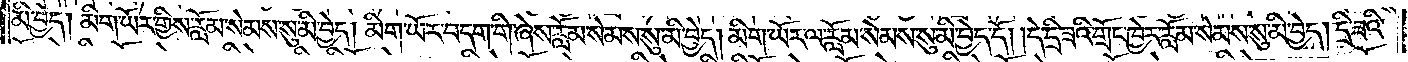སུ་མི་བྱེད། མིག་ཡོར་གྱིས་རློམ་སེམས་སུ་མི་བྱེད། མིག་ཡོར་བདག་གི་ཞེས་རློམ་སེམས་སུ་མི་བྱེད། མིག་ཡོར་ལ་རློམ་སེམས་སུ་མི་བྱེད་དོ། །དེ་དྲི་ཟའི་གྲོང་ཁྱེར་རློམ་སེམས་སུ་མི་བྱེད། དྲི་ཟའི་
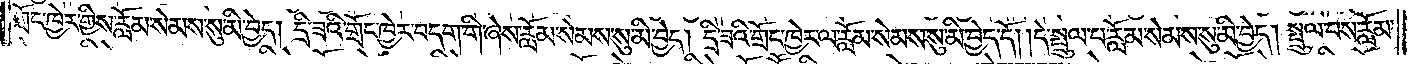གྲོང་ཁྱེར་གྱིས་རློམ་སེམས་སུ་མི་བྱེད། དྲི་ཟའི་གྲོང་ཁྱེར་བདག་གི་ཞེས་རློམ་སེམས་སུ་མི་བྱེད། དྲི་ཟའི་གྲོང་ཁྱེར་ལ་རློམ་སེམས་སུ་མི་བྱེད་དོ། །དེ་སྤྲུལ་པ་རློམ་སེམས་སུ་མི་བྱེད། སྤྲུལ་པས་རློམ་
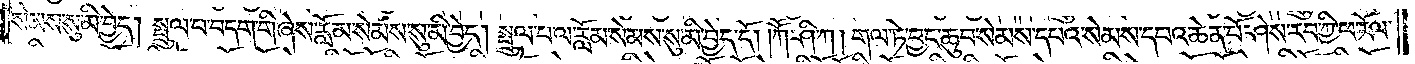སེམས་སུ་མི་བྱེད། སྤྲུལ་པ་བདག་གི་ཞེས་རློམ་སེམས་སུ་མི་བྱེད། སྤྲུལ་པ་ལ་རློམ་སེམས་སུ་མི་བྱེད་དོ། །ཀཽ་ཤི་ཀ། གལ་ཏེ་བྱང་ཆུབ་སེམས་དཔའ་སེམས་དཔའ་ཆེན་པོ་ཤེས་རབ་ཀྱི་ཕ་རོལ་
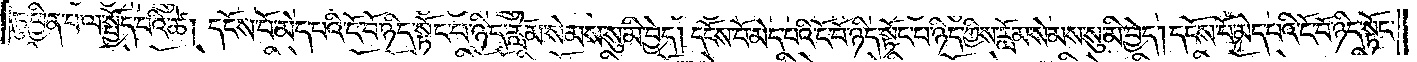ཏུ་ཕྱིན་པ་ལ་སྤྱོད་པའི་ཚེ། དངོས་པོ་མེད་པའི་ངོ་བོ་ཉིད་སྟོང་པ་ཉིད་རློམ་སེམས་སུ་མི་བྱེད། དངོས་པོ་མེད་པའི་ངོ་བོ་ཉིད་སྟོང་པ་ཉིད་ཀྱིས་རློམ་སེམས་སུ་མི་བྱེད། དངོས་པོ་མེད་པའི་ངོ་བོ་ཉིད་སྟོང་
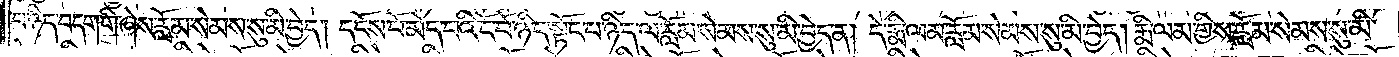པ་ཉིད་བདག་གི་ཞེས་རློམ་སེམས་སུ་མི་བྱེད། དངོས་པོ་མེད་པའི་ངོ་བོ་ཉིད་སྟོང་པ་ཉིད་ལ་རློམ་སེམས་སུ་མི་བྱེད་ན། དེ་རྨི་ལམ་རློམ་སེམས་སུ་མི་བྱེད། རྨི་ལམ་གྱིས་རློམ་སེམས་སུ་མི་
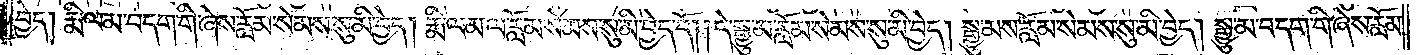བྱེད། རྨི་ལམ་བདག་གི་ཞེས་རློམ་སེམས་སུ་མི་བྱེད། རྨི་ལམ་ལ་རློམ་སེམས་སུ་མི་བྱེད་དོ། །དེ་སྒྱུ་མ་རློམ་སེམས་སུ་མི་བྱེད། སྒྱུ་མས་རློམ་སེམས་སུ་མི་བྱེད། སྒྱུ་མ་བདག་གི་ཞེས་རློམ་
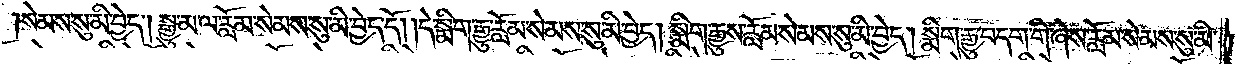སེམས་སུ་མི་བྱེད། སྒྱུ་མ་ལ་རློམ་སེམས་སུ་མི་བྱེད་དོ། །དེ་སྨིག་རྒྱུ་རློམ་སེམས་སུ་མི་བྱེད། སྨིག་རྒྱུས་རློམ་སེམས་སུ་མི་བྱེད། སྨིག་རྒྱུ་བདག་གི་ཞེས་རློམ་སེམས་སུ་མི་
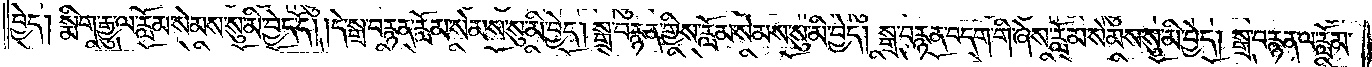བྱེད། སྨིག་རྒྱུ་ལ་རློམ་སེམས་སུ་མི་བྱེད་དོ། །དེ་སྒྲ་བརྙན་རློམ་སེམས་སུ་མི་བྱེད། སྒྲ་བརྙན་གྱིས་རློམ་སེམས་སུ་མི་བྱེད། སྒྲ་བརྙན་བདག་གི་ཞེས་རློམ་སེམས་སུ་མི་བྱེད། སྒྲ་བརྙན་ལ་རློམ་
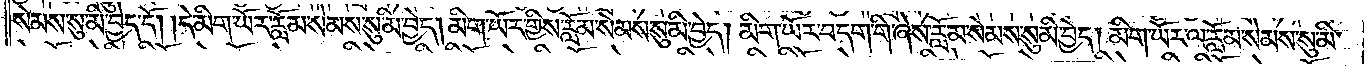སེམས་སུ་མི་བྱེད་དོ། །དེ་མིག་ཡོར་རློམ་སེམས་སུ་མི་བྱེད། མིག་ཡོར་གྱིས་རློམ་སེམས་སུ་མི་བྱེད། མིག་ཡོར་བདག་གི་ཞེས་རློམ་སེམས་སུ་མི་བྱེད། མིག་ཡོར་ལ་རློམ་སེམས་སུ་མི་
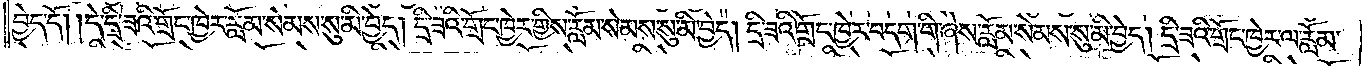བྱེད་དོ། །དེ་དྲི་ཟའི་གྲོང་ཁྱེར་རློམ་སེམས་སུ་མི་བྱེད། དྲི་ཟའི་གྲོང་ཁྱེར་གྱིས་རློམ་སེམས་སུ་མི་བྱེད། དྲི་ཟའི་གྲོང་ཁྱེར་བདག་གི་ཞེས་རློམ་སེམས་སུ་མི་བྱེད། དྲི་ཟའི་གྲོང་ཁྱེར་ལ་རློམ་
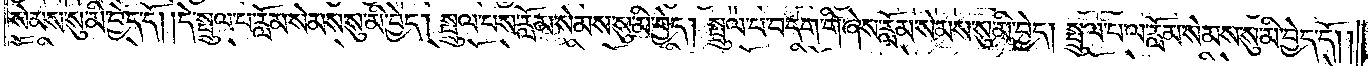སེམས་སུ་མི་བྱེད་དོ། །དེ་སྤྲུལ་པ་རློམ་སེམས་སུ་མི་བྱེད། སྤྲུལ་པས་རློམ་སེམས་སུ་མི་བྱེད། སྤྲུལ་པ་བདག་གི་ཞེས་རློམ་སེམས་སུ་མི་བྱེད། སྤྲུལ་པ་ལ་རློམ་སེམས་སུ་མི་བྱེད་དོ། །
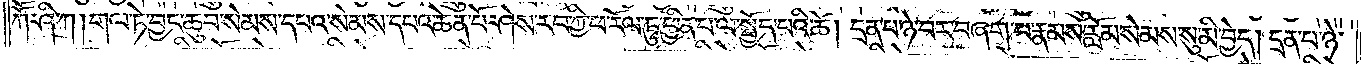ཀཽ་ཤི་ཀ། གལ་ཏེ་བྱང་ཆུབ་སེམས་དཔའ་སེམས་དཔའ་ཆེན་པོ་ཤེས་རབ་ཀྱི་ཕ་རོལ་ཏུ་ཕྱིན་པ་ལ་སྤྱོད་པའི་ཚེ། དྲན་པ་ཉེ་བར་བཞག་པ་རྣམས་རློམ་སེམས་སུ་མི་བྱེད། དྲན་པ་ཉེ་
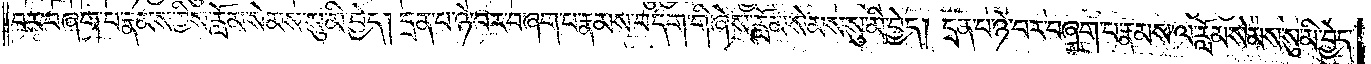བར་བཞག་པ་རྣམས་ཀྱིས་རློམ་སེམས་སུ་མི་བྱེད། དྲན་པ་ཉེ་བར་བཞག་པ་རྣམས་བདག་གི་ཞེས་རློམ་སེམས་སུ་མི་བྱེད། དྲན་པ་ཉེ་བར་བཞག་པ་རྣམས་ལ་རློམ་སེམས་སུ་མི་བྱེད་
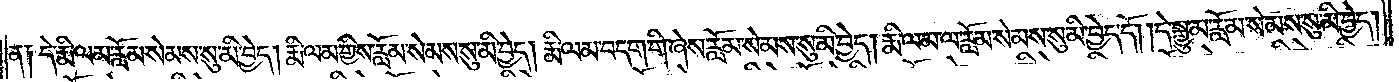ན༑ དེ་རྨི་ལམ་རློམ་སེམས་སུ་མི་བྱེད། རྨི་ལམ་གྱིས་རློམ་སེམས་སུ་མི་བྱེད། རྨི་ལམ་བདག་གི་ཞེས་རློམ་སེམས་སུ་མི་བྱེད། རྨི་ལམ་ལ་རློམ་སེམས་སུ་མི་བྱེད་དོ། །དེ་སྒྱུ་མ་རློམ་སེམས་སུ་མི་བྱེད།
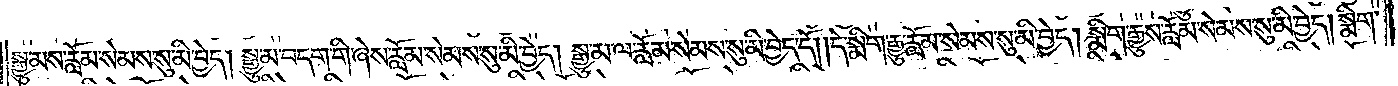སྒྱུ་མས་རློམ་སེམས་སུ་མི་བྱེད། སྒྱུ་མ་བདག་གི་ཞེས་རློམ་སེམས་སུ་མི་བྱེད། སྒྱུ་མ་ལ་རློམ་སེམས་སུ་མི་བྱེད་དོ། །དེ་སྨིག་རྒྱུ་རློམ་སེམས་སུ་མི་བྱེད། སྨིག་རྒྱུས་རློམ་སེམས་སུ་མི་བྱེད། སྨིག་
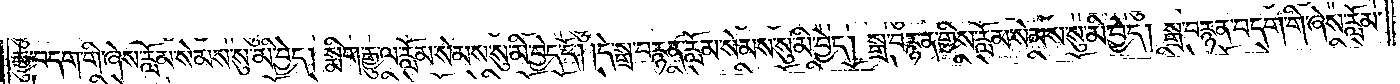རྒྱུ་བདག་གི་ཞེས་རློམ་སེམས་སུ་མི་བྱེད། སྨིག་རྒྱུ་ལ་རློམ་སེམས་སུ་མི་བྱེད་དོ། །དེ་སྒྲ་བརྙན་རློམ་སེམས་སུ་མི་བྱེད། སྒྲ་བརྙན་གྱིས་རློམ་སེམས་སུ་མི་བྱེད། སྒྲ་བརྙན་བདག་གི་ཞེས་རློམ་
